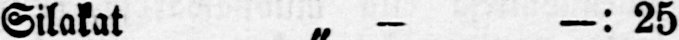Silakat „ — —: 25
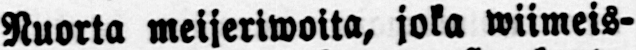Nuorta meijeriwoita, joka wiimeis-
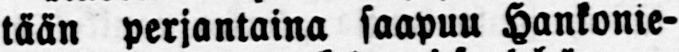tään perjantaina saapuu Hankonie-
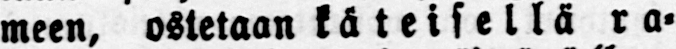meen, ostetaan käteisellä ra-
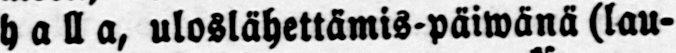halla, uloslähettämis-päiwänä (lau-
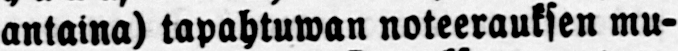antaina) tapahtuwan noteerauksen mu-
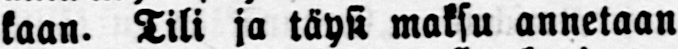kaan. Tili ja täysi maksu annetaan
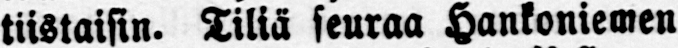tiistaisin. Tiliä seuraa Hankoniemen
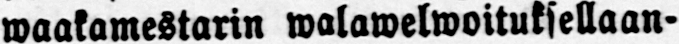waakamestarin walawelwoituksella an-
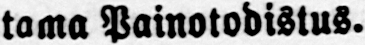tama Painotodistus.
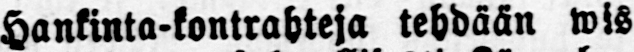Hankinta-kontrahteja tehdään wis
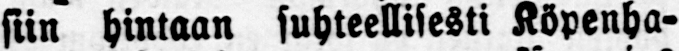siin hintaan suhteellisesti Köpenha-
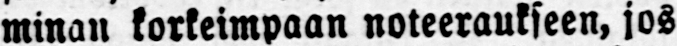minan korkeimpaan noteeraukseen, jos
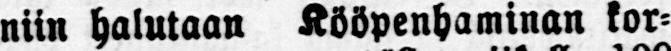niin halutaan Kööpenhaminan kor-
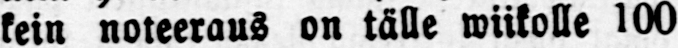kein noteeraus on tälle wiikolle 100
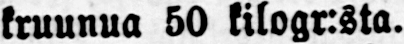kruunua 50 kilogr:sta.
